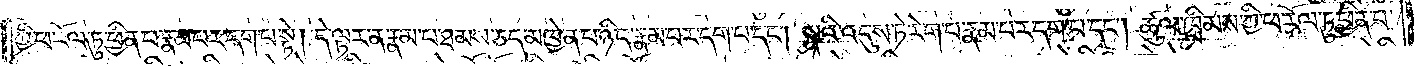ཀྱི་ཕ་རོལ་ཏུ་ཕྱིན་པ་རྣམ་པར་དག་པ་སྟེ། དེ་ལྟར་ན་རྣམ་པ་ཐམས་ཅད་མཁྱེན་པ་ཉིད་རྣམ་པར་དག་པ་དང༌། སྣའི་འདུས་ཏེ་རེག་པ་རྣམ་པར་དག་པ་དང༌། ཚུལ་ཁྲིམས་ཀྱི་ཕ་རོལ་ཏུ་ཕྱིན་པ་
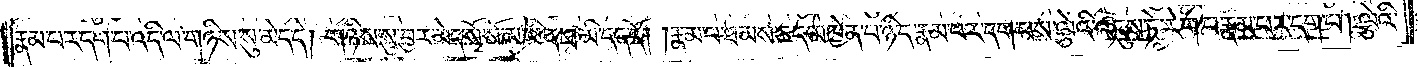རྣམ་པར་དག་པ་འདི་ལ་གཉིས་སུ་མེད་དེ། གཉིས་སུ་བྱར་མེད་སོ་སོ་མ་ཡིན་ཐ་མི་དད་དོ། །རྣམ་པ་ཐམས་ཅད་མཁྱེན་པ་ཉིད་རྣམ་པར་དག་པས་ལྕེའི་འདུས་ཏེ་རེག་པ་རྣམ་པར་དག་པ། ལྕེའི་
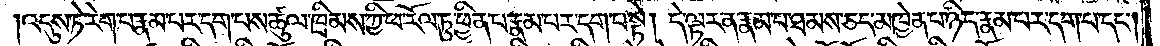འདུས་ཏེ་རེག་པ་རྣམ་པར་དག་པས་ཚུལ་ཁྲིམས་ཀྱི་ཕ་རོལ་ཏུ་ཕྱིན་པ་རྣམ་པར་དག་པ་སྟེ། དེ་ལྟར་ན་རྣམ་པ་ཐམས་ཅད་མཁྱེན་པ་ཉིད་རྣམ་པར་དག་པ་དང༌།
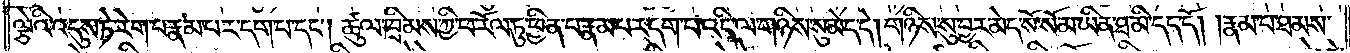ལྕེའི་འདུས་ཏེ་རེག་པ་རྣམ་པར་དག་པ་དང༌། ཚུལ་ཁྲིམས་ཀྱི་ཕ་རོལ་ཏུ་ཕྱིན་པ་རྣམ་པར་དག་པ་འདི་ལ་གཉིས་སུ་མེད་དེ། གཉིས་སུ་བྱར་མེད་སོ་སོ་མ་ཡིན་ཐ་མི་དད་དོ། །རྣམ་པ་ཐམས་
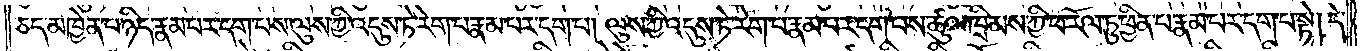ཅད་མཁྱེན་པ་ཉིད་རྣམ་པར་དག་པས་ལུས་ཀྱི་འདུས་ཏེ་རེག་པ་རྣམ་པར་དག་པ། ལུས་ཀྱི་འདུས་ཏེ་རེག་པ་རྣམ་པར་དག་པས་ཚུལ་ཁྲིམས་ཀྱི་ཕ་རོལ་ཏུ་ཕྱིན་པ་རྣམ་པར་དག་པ་སྟེ། དེ་
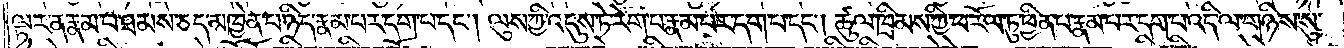ལྟར་ན་རྣམ་པ་ཐམས་ཅད་མཁྱེན་པ་ཉིད་རྣམ་པར་དག་པ་དང༌། ལུས་ཀྱི་འདུས་ཏེ་རེག་པ་རྣམ་པར་དག་པ་དང༌། ཚུལ་ཁྲིམས་ཀྱི་ཕ་རོལ་ཏུ་ཕྱིན་པ་རྣམ་པར་དག་པ་འདི་ལ་གཉིས་སུ་
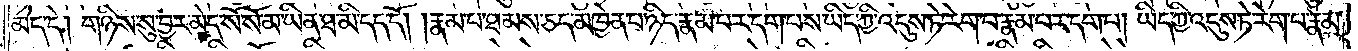མེད་དེ། གཉིས་སུ་བྱར་མེད་སོ་སོ་མ་ཡིན་ཐ་མི་དད་དོ། །རྣམ་པ་ཐམས་ཅད་མཁྱེན་པ་ཉིད་རྣམ་པར་དག་པས་ཡིད་ཀྱི་འདུས་ཏེ་རེག་པ་རྣམ་པར་དག་པ། ཡིད་ཀྱི་འདུས་ཏེ་རེག་པ་རྣམ་
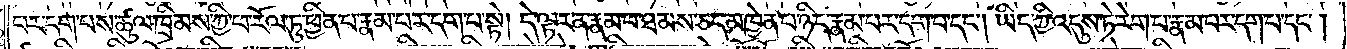པར་དག་པས་ཚུལ་ཁྲིམས་ཀྱི་ཕ་རོལ་ཏུ་ཕྱིན་པ་རྣམ་པར་དག་པ་སྟེ། དེ་ལྟར་ན་རྣམ་པ་ཐམས་ཅད་མཁྱེན་པ་ཉིད་རྣམ་པར་དག་པ་དང༌། ཡིད་ཀྱི་འདུས་ཏེ་རེག་པ་རྣམ་པར་དག་པ་དང༌།
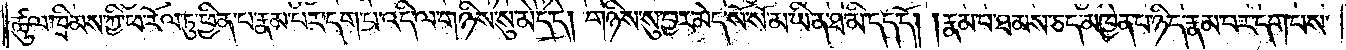ཚུལ་ཁྲིམས་ཀྱི་ཕ་རོལ་ཏུ་ཕྱིན་པ་རྣམ་པར་དག་པ་འདི་ལ་གཉིས་སུ་མེད་དེ། གཉིས་སུ་བྱར་མེད་སོ་སོ་མ་ཡིན་ཐ་མི་དད་དོ། །རྣམ་པ་ཐམས་ཅད་མཁྱེན་པ་ཉིད་རྣམ་པར་དག་པས་
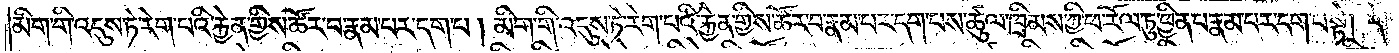མིག་གི་འདུས་ཏེ་རེག་པའི་རྐྱེན་གྱིས་ཚོར་བ་རྣམ་པར་དག་པ། མིག་གི་འདུས་ཏེ་རེག་པའི་རྐྱེན་གྱིས་ཚོར་བ་རྣམ་པར་དག་པས་ཚུལ་ཁྲིམས་ཀྱི་ཕ་རོལ་ཏུ་ཕྱིན་པ་རྣམ་པར་དག་པ་སྟེ། དེ་
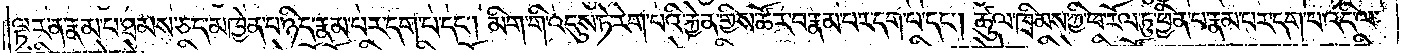ལྟར་ན་རྣམ་པ་ཐམས་ཅད་མཁྱེན་པ་ཉིད་རྣམ་པར་དག་པ་དང༌། མིག་གི་འདུས་ཏེ་རེག་པའི་རྐྱེན་གྱིས་ཚོར་བ་རྣམ་པར་དག་པ་དང༌། ཚུལ་ཁྲིམས་ཀྱི་ཕ་རོལ་ཏུ་ཕྱིན་པ་རྣམ་པར་དག་པ་འདི་ལ་
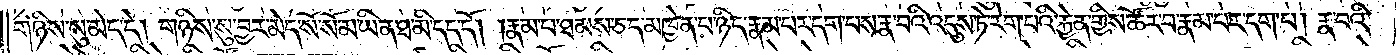གཉིས་སུ་མེད་དེ། གཉིས་སུ་བྱར་མེད་སོ་སོ་མ་ཡིན་ཐ་མི་དད་དོ། །རྣམ་པ་ཐམས་ཅད་མཁྱེན་པ་ཉིད་རྣམ་པར་དག་པས་རྣ་བའི་འདུས་ཏེ་རེག་པའི་རྐྱེན་གྱིས་ཚོར་བ་རྣམ་པར་དག་པ། རྣ་བའི་
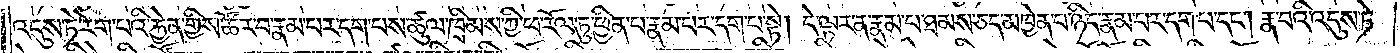འདུས་ཏེ་རེག་པའི་རྐྱེན་གྱིས་ཚོར་བ་རྣམ་པར་དག་པས་ཚུལ་ཁྲིམས་ཀྱི་ཕ་རོལ་ཏུ་ཕྱིན་པ་རྣམ་པར་དག་པ་སྟེ། དེ་ལྟར་ན་རྣམ་པ་ཐམས་ཅད་མཁྱེན་པ་ཉིད་རྣམ་པར་དག་པ་དང༌། རྣ་བའི་འདུས་ཏེ་
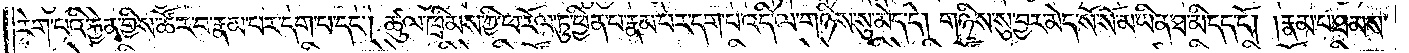རེག་པའི་རྐྱེན་གྱིས་ཚོར་བ་རྣམ་པར་དག་པ་དང༌། ཚུལ་ཁྲིམས་ཀྱི་ཕ་རོལ་ཏུ་ཕྱིན་པ་རྣམ་པར་དག་པ་འདི་ལ་གཉིས་སུ་མེད་དེ། གཉིས་སུ་བྱར་མེད་སོ་སོ་མ་ཡིན་ཐ་མི་དད་དོ། །རྣམ་པ་ཐམས་
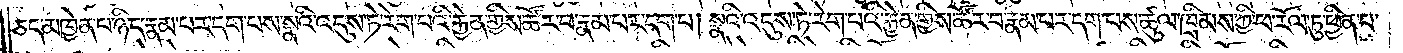ཅད་མཁྱེན་པ་ཉིད་རྣམ་པར་དག་པས་སྣའི་འདུས་ཏེ་རེག་པའི་རྐྱེན་གྱིས་ཚོར་བ་རྣམ་པར་དག་པ། སྣའི་འདུས་ཏེ་རེག་པའི་རྐྱེན་གྱིས་ཚོར་བ་རྣམ་པར་དག་པས་ཚུལ་ཁྲིམས་ཀྱི་ཕ་རོལ་ཏུ་ཕྱིན་པ་
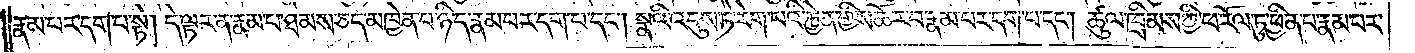རྣམ་པར་དག་པ་སྟེ། དེ་ལྟར་ན་རྣམ་པ་ཐམས་ཅད་མཁྱེན་པ་ཉིད་རྣམ་པར་དག་པ་དང༌། སྣའི་འདུས་ཏེ་རེག་པའི་རྐྱེན་གྱིས་ཚོར་བ་རྣམ་པར་དག་པ་དང༌། ཚུལ་ཁྲིམས་ཀྱི་ཕ་རོལ་ཏུ་ཕྱིན་པ་རྣམ་པར་
